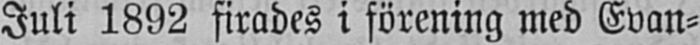Juli 1892 firades i förening med Evan-
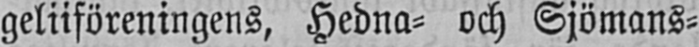geliiföreningens, Hedna- och Sjömans-
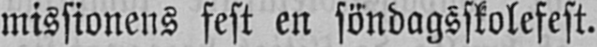missionens fest en söndagsskolefest.
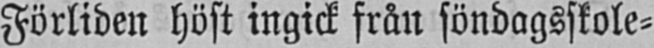Förliden höst ingick från söndagsskole-
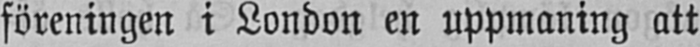föreningen i London en uppmaning att
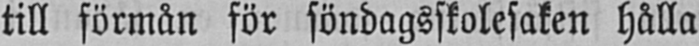till förmån för söndagsskolesaken hålla
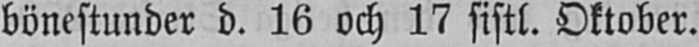bönestunder d. 16 och 17 sistl. Oktober.
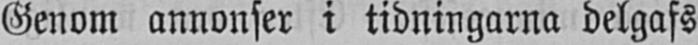Genom annonser i tidningarna delgafs
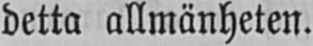detta allmänheten.
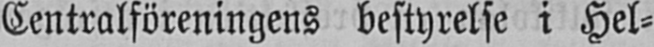Centralföreningens bestyrelse i Hel-
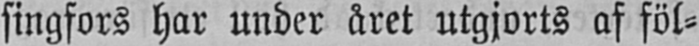singfors har under året utgjorts af föl-
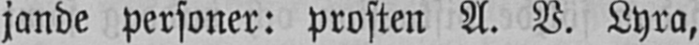jande personer: prosten A. V. Lyra,
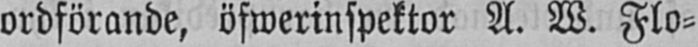ordförande, öfwerinspektor A. W. Flo-
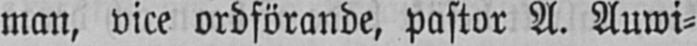man, vice ordförande, pastor A. Auwi-
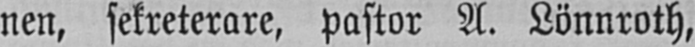nen, sekreterare, pastor A. Lönnroth,
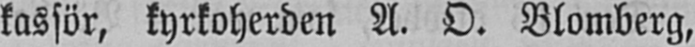kassör, kyrkoherden A. O. Blomberg,
